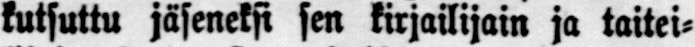kutsuttu jäseneksi sen kirjailijain ja taitei-
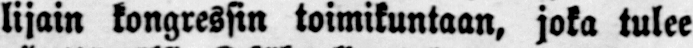lijain kongressin toimikuntaan, joka tulee
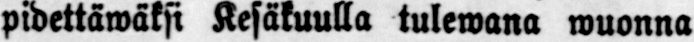pidettäwäksi Kesäkuulla tulewana wuonna
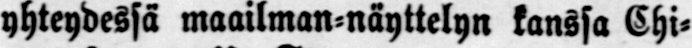yhteydessä maailman-näyttelyn kanssa Chi-
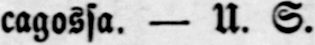cagossa. — U. S.
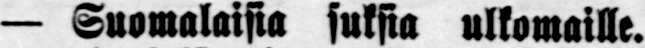— Suomalaisia suksia ulkomaille.
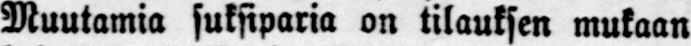Muutamia suksiparia on tilauksen mukaan
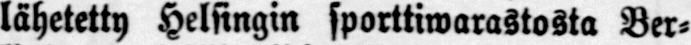lähetetty Helsingin sporttiwarastosta Ber-
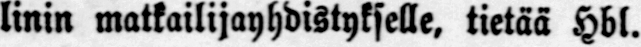linin matkailijayhdistykselle, tietää Hbl.
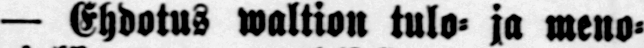— Ehdotus waltion tulo- ja meno-
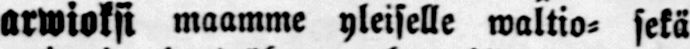arwioksi maamme yleiselle waltio- sekä
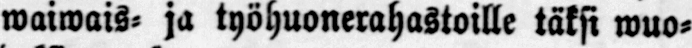waiwais- ja työhuonerahastoille täksi wuo-
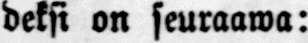deksi on seuraawa:
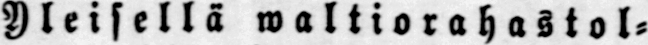Yleisellä waltiorahastol-
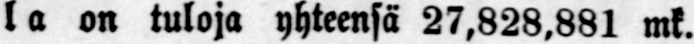la on tuloja yhteensä 27,828,881 mk.
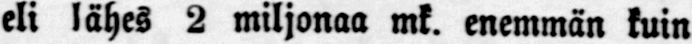eli lähes 2 miljonaa mk. enemmän kuin
